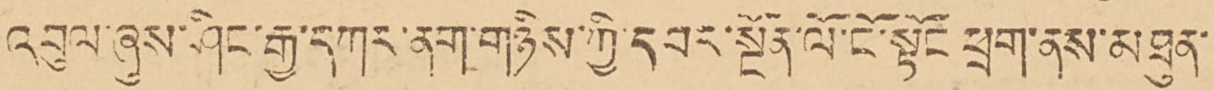འབུལ་ཞུས་ཤིང་རྒྱ་དཀར་ནག་གཉིས་ཀྱི་དབར་སྔོན་ལོ་ངོ་སྟོང་ཕྲག་ནས་མཐུན་
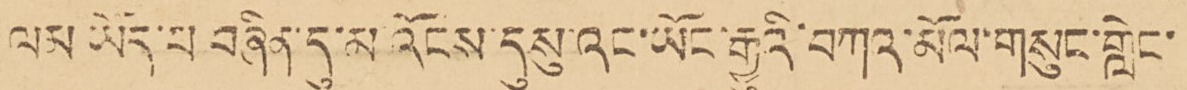ལམ ཡོད་པ བཞིན་དུ་མ་འོངས་དུསུ་འང་ཡོང་རྒྱུའི་བཀའ་མོལ་གསུང་གླེང་
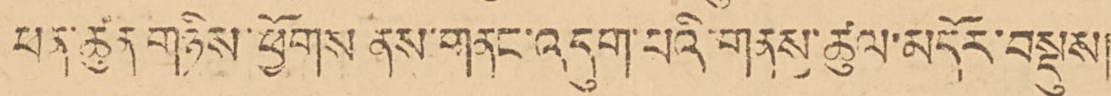ཕན་ཚུན་གཉིས་ཕྱོགས ནས་གནང་འདུག་པའི་གནས་ཚུལ་མདོར་བསྡུས།།
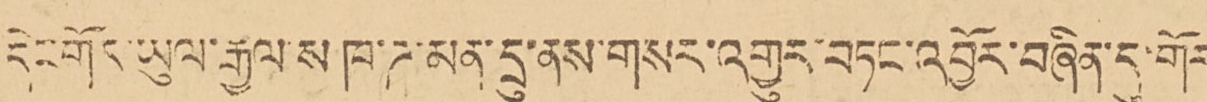དེང་གོར་ཡུལ་རྒྱལ་ས ཁ་ཌ་མན་དྲུ་ནས་གསར་འགྱུར་བཏང་འབྱོར་བཞིན་དུ་གོར་
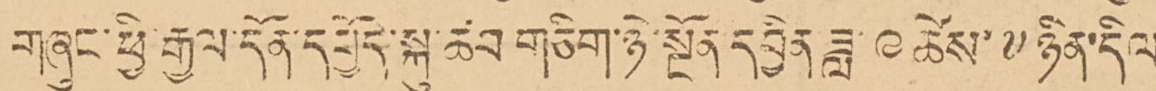གཞུང་ཕྱི རྒྱལ་དོན་དབྱོད་སྐུ་ཚབ་གཅིག་ཉེ་སྔོན་དབྱིན་ཟླ་ ༩ ཚེས་ ༧ ཉིན་དིལ་
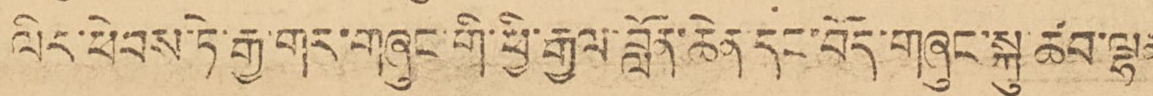ལིར་ཕེབས་ཏེ་རྒྱ་གར་གཞུང་གི་ཕྱི་རྒྱལ་བློན་ཆེན དང་བོད་གཞུང་སྐུ ཚབ་ལྷན་
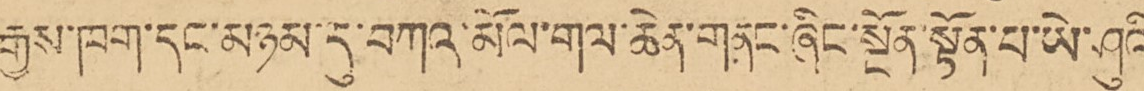རྒྱས་ཁག་དང་མཉམ་དུ་བཀའ་མོལ་གལ་ཆེན་གནང་ཞིང་སྔོན་སྟོན་པ་ཡེ་ཤུའི་
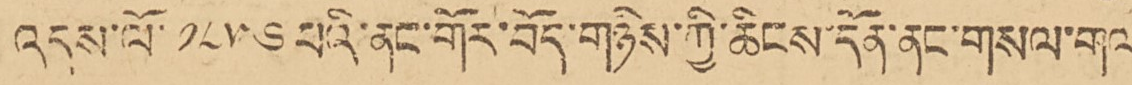འདས་ལོ་ ༡༨༥༦ པའི་ནང་གོར་བོད་གཉིས་ཀྱི་ཆིངས་དོན་ནང་གསལ་གལ་
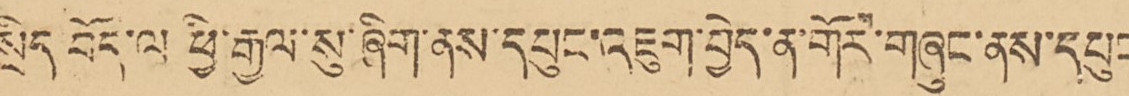སྲིད་བོད་ལ ཕྱི་རྒྱལ་སུ་ཞིག་ནས་དཔུང་འཇུག་བྱེད་ན་གོར་གཞུང་ནས་དཔུང་
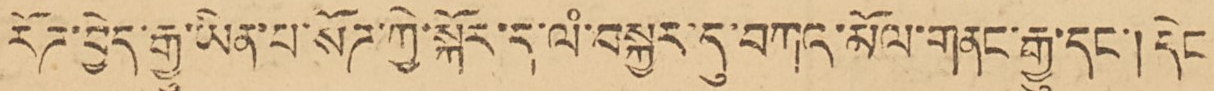རོཊ་བྱེད་རྒྱུ་ཡིན་པ་སོཊ་ཀྱི་སྐོར་ད་ལཾ་བསྐྱར་དུ་བཀའ་མོལ་གནང་རྒྱུ་དང་། དེང་
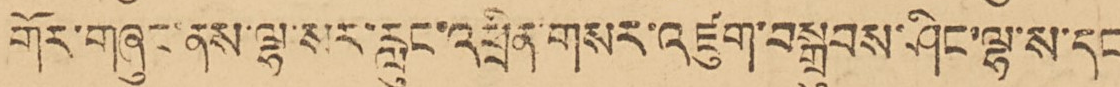གོར་གཞུང་ནས་ལྷ་སར་རླུང་འཕྲིན་གསར་འཛུག་བསྒྲུབས་ཤིང་ལྷ་ས་དང་
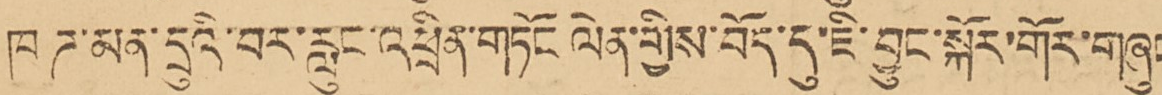ཁཌ་མན་དྲུའི་བར་རླུང་འཕྲིན་གཏོང ལེན་གྱིས་བོད་དུ་ཇི་བྱུང་སྐོར་གོར་གཞུང་
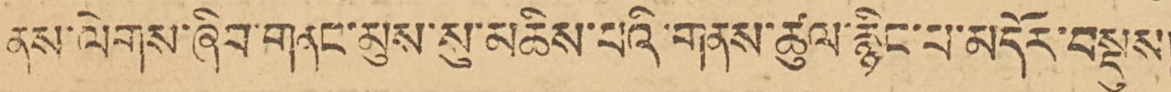ནས་ལེགས་ཞིབ་གནང་མུས་སུ་འཆིས་པའི་གནས་ཚུལ་རྙིང་པ་མདོར་བསྡུས།།
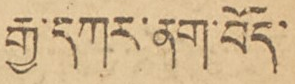རྒྱ་དཀར་ནག་བོད་
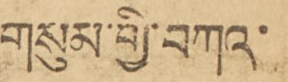གསུམ་གྱི་བཀའ་
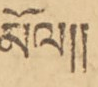མོལ།།
